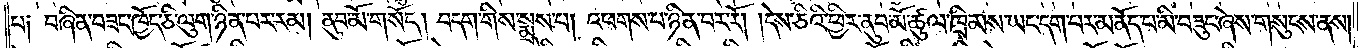པ༑  བཞིན་བཟང་ཁྱོད་ཅི་ལུག་ཉིན་པར་རམ། ནུབ་མོ་གསོད། བདག་གིས་སྨྲས་པ། འཕགས་པ་ཉིན་བར་རོ། །དེས་ཅིའི་ཕྱིར་ནུབ་མོ་ཚུལ་ཁྲིམས་ཡང་དག་པར་མ་ནོད་པ་མི་བཟུང་ཞེས་གསུངས་ནས།
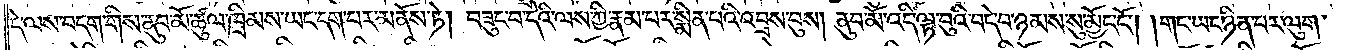དེ་ལས་བདག་གིས་ནུབ་མོ་ཚུལ་ཁྲིམས་ཡང་དག་པར་མནོས་ཏེ། བཟུང་བ་དེའི་ལས་ཀྱི་རྣམ་པར་སྨིན་པའི་འབྲས་བུས། ནུབ་མོ་འདི་ལྟ་བུའི་བདེ་བ་ཉམས་སུ་མྱོང་ངོ༌། །གང་ཡང་ཉིན་པར་ལུག་
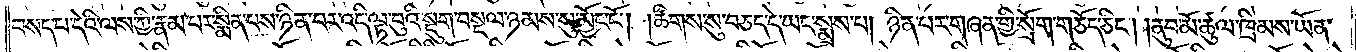བསད་པ་དེའི་ལས་ཀྱི་རྣམ་པར་སྨིན་པས་ཉིན་པར་འདི་ལྟ་བུའི་སྡུག་བསྔལ་ཉམས་སུ་མྱོང་ངོ༌། །ཚིགས་སུ་བཅད་དེ་ཡང་སྨྲས་པ། ཉིན་པར་གཞན་གྱི་སྲོག་གཅོད་ཅིང༌། །ནུབ་མོ་ཚུལ་ཁྲིམས་ཡོན་
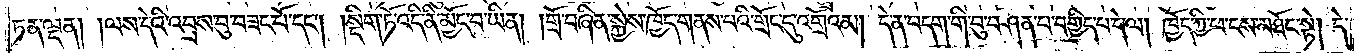ཏན་ལྡན། །ལས་དེའི་འབྲས་བུ་བཟང་པོ་དང༌། །སྡིག་ཏོ་འདི་ནི་མྱོང་བ་ཡིན། །གྲོ་བཞིན་སྐྱེས་ཁྱོད་གནས་པའི་གྲོང་དུ་འགྲོའམ། དེ་ན་བདག་གི་བུ་བཤན་པ་བགྱིད་པ་དེ་ལ། ཁྱོད་ཀྱི་ཕ་ངས་མཐོང་སྟེ། དེ་
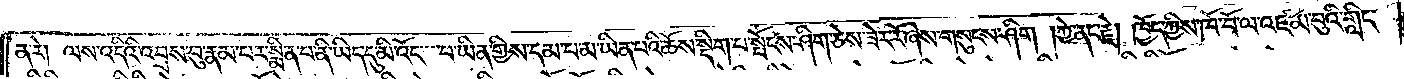ན་རེ། ལས་འདིའི་འབྲས་བུ་རྣམ་པར་སྨིན་པ་ནི་ཡིད་དུ་མི་འོང་པ་ཡིན་གྱིས་དམ་པ་མ་ཡིན་པའི་ཆོས་སྡིག་པ་སྤོངས་ཤིག་ཅེས་ཟེར་རོ་ཞེས་གསུངས་ཤིག །ཀྱེ་ནང་རྗེ། ཁྱོད་ཀྱིས་ཁེ་བོ་ལ་འཛམ་བུའི་གླིང་
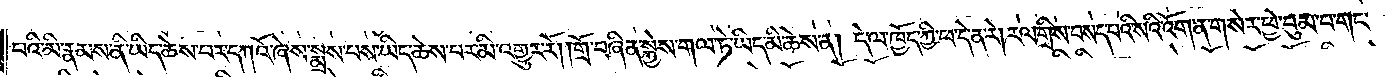པའི་མི་རྣམས་ནི་ཡིད་ཆེས་བར་དཀའོ་ཞེས་སྨྲས་པས་ཡིད་ཆེས་པར་མི་འགྱུར་རོ། །གྲོ་བཞིན་སྐྱེས་གལ་ཏེ་ཡིད་མི་ཆེས་ན། དེ་ལ་ཁྱོད་ཀྱི་ཕ་དེ་ན་རེ། རལ་གྲིས་བསད་པའི་སའི་འོག་ན་གསེར་ཕྱེ་བུམ་པ་གང་
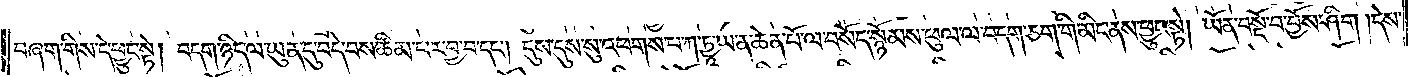བཞག་གིས་དེ་ཕྱུང་སྟེ། བདག་ཉིད་ལ་ཡུན་དུ་བདེ་བས་ཚིམ་པར་བྱ་བ་དང༌། དུས་དུས་སུ་འཕགས་པ་ཀ་ཏྱཱ་ཡ་ན་ཆེན་པོ་ལ་བསོད་སྙོམས་ཕུལ་ལ་བདག་ཅག་གི་མིང་ནས་ཕྱུང་སྟེ། ཡོན་བསྔོ་བ་བྱོས་ཤིག །དེས་
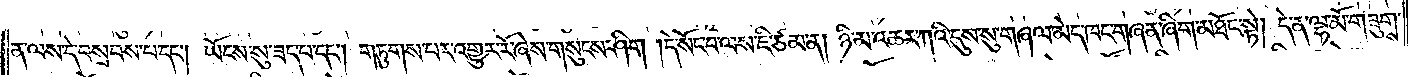ན་ལས་དེ་བསྲབས་པ་དང༌། ཡོངས་སུ་ཟད་པ་དང༌། གཏུགས་པར་འགྱུར་རོ་ཞེས་གསུངས་ཤིག །དེ་སོང་བ་ལས་ཇི་ཙམ་ན། ཉི་མ་འཆར་ཀའི་དུས་སུ་གཞལ་མེད་ཁང་གཞན་ཞིག་མཐོང་སྟེ། དེ་ན་ལྷ་མོ་གཟུགས་
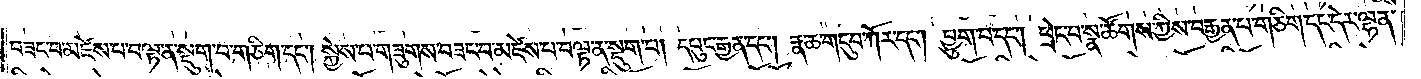བཟང་བ་མཛེས་བ་བལྟ་ན་སྡུག་བ་གཅིག་དང༌། སྐྱེས་བ་གཟུགས་བཟང་བ་མཛེས་པ་བལྟ་ན་སྡུག་པ། དཔུང་རྒྱན་དང༌། རྣ་ཆ་གདུབ་ཀོར་དང༌། བྱུག་བ་དང༌། ཕྲེང་བ་སྣ་ཚོགས་ཀྱིས་བརྒྱན་པ་གཅིག་དང་དེར་ལྷན་
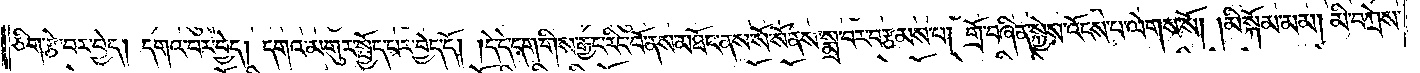ཅིག་རྩེ་བར་བྱེད། དགའ་བར་བྱེད། དགའ་མགུར་སྤྱོད་པར་བྱེད་དོ། །དེ་དེ་དག་གིས་རྒྱང་རིང་པོ་ནས་མཐོང་ནས་སོ་སོ་ནས་སྨྲ་བར་བརྩམས་པ། གྲོ་བཞིན་སྐྱེས་འོངས་པ་ལེགས་སོ། །མི་སྐོམ་མམ། མི་བཀྲེས་
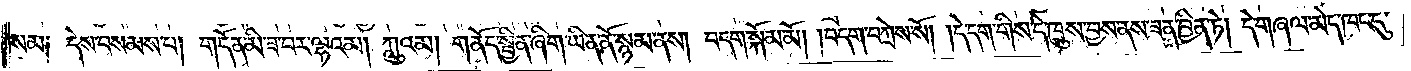སམ༏  དེས་བསམས་པ། གདོན་མི་ཟ་བར་ལྷའམ། ཀླུའམ། གནོད་སྦྱིན་ཞིག་ཡིན་ནོ་སྙམ་ནས། བདག་སྐོམ་མོ། །བདག་བཀྲེས་སོ། །དེ་དག་གིས་དེ་ཁྲུས་བྱས་ནས་ཟན་བྱིན་ཏེ། དེ་གཞལ་མེད་ཁང་དུ་
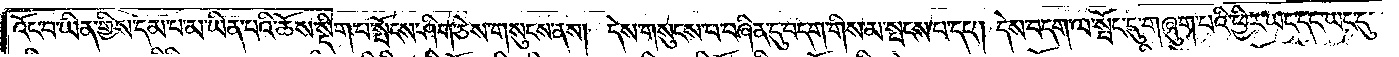འོང་པ་ཡིན་གྱིས་དམ་པ་མ་ཡིན་པའི་ཆོས་སྡིག་པ་སྤོངས་ཤིག་ཅེས་གསུངས་ནས། དེས་གསུངས་པ་བཞིན་དུ་བདག་གིས་མ་སྤངས་པ་དང༌། དེས་བདག་ལ་སྤོང་དུ་གཞུག་པའི་ཕྱིར་ཡང་དང་ཡང་དུ་
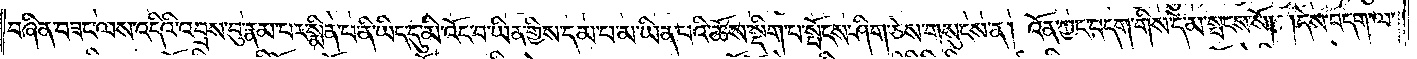བཞིན་བཟང་ལས་འདིའི་འབྲས་བུ་རྣམ་པར་སྨིན་པ་ནི་ཡིད་དུ་མི་འོང་བ་ཡིན་གྱིས་དམ་པ་མ་ཡིན་པའི་ཆོས་སྡིག་པ་སྤོངས་ཤིག་ཅེས་གསུངས་ན། འོན་ཀྱང་བདག་གིས་དེ་མ་སྤངས་སོ། །དེས་བདག་ལ་
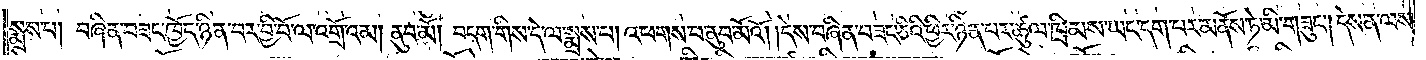སྨྲས་པ། བཞིན་བཟང་ཁྱོད་ཉིན་བར་བྱི་བོ་ལ་འགྲོ་འམ། ནུབ་མོ། བདག་གིས་དེ་ལ་སྨྲས་པ། འཕགས་པ་ནུབ་མོའོ། །དེས་བཞིན་བཟང་ཅིའི་ཕྱིར་ཉིན་པར་ཚུལ་ཁྲིམས་ཡང་དག་པར་མནོས་ཏེ་མི་གཟུང༌། དེས་ན་ལས་
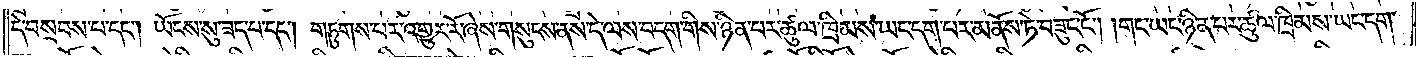དེ་བསྲབས་པ་དང༌། ཡོངས་སུ་ཟད་པ་དང༌། གཏུགས་པར་འགྱུར་རོ་ཞེས་གསུངས་ནས་དེ་ལས་བདག་གིས་ཉིན་པར་ཚུལ་ཁྲིམས་ཡང་དག་པར་མནོས་ཏེ་བཟུང་ངོ༌། །གང་ཡང་ཉིན་པར་ཚུལ་ཁྲིམས་ཡང་དག་
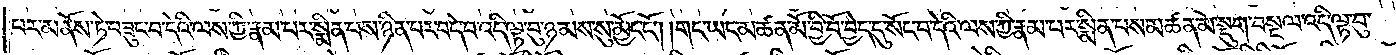པར་མནོས་ཏེ་བཟུང་བ་དེའི་ལས་ཀྱི་རྣམ་པར་སྨིན་པས་ཉིན་པར་བདེ་བ་འདི་ལྟ་བུ་ཉམས་སུ་མྱོང་ངོ༌། །གང་ཡང་མཚན་མོ་བྱི་བོ་བྱེད་དུ་སོང་བ་དེའི་ལས་ཀྱི་རྣམ་པར་སྨིན་པས་མཚན་མོ་སྡུག་བསྔལ་འདི་ལྟ་བུ་
